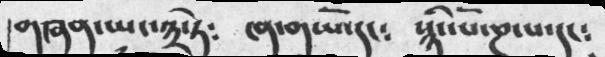།གཞན་ཡང་༣་ཏེ༴  ངན་གཡོ་དང༴  སྙིང་པོ་ཎ་པ་དང༴
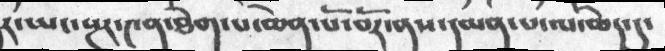ར་ཡང་སྔར་༤ན་ཐེག་པ་ཆེན་པོ་བོར་ནས་དམན་པ་ལ་ཆེད་དུ་
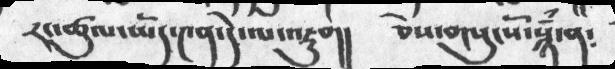རང་ཚུལ་ཡོད་༤ན་དེ་ལ་འཇུབ།།    ཅེས་གསུངསོ་སྙཾ་ན༴
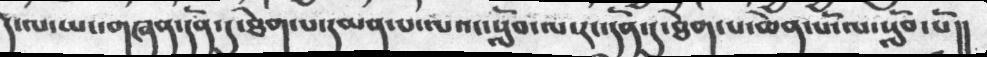དེ་ལ་ཡང་གཞན་དོན་དུ་ཐེག་པ་དམན་པ་ལའང་སློབ་ལ་རང་དོན་དུ་ཐེག་པ་ཆེན་པོ་ལ་སློབ་པོ།།
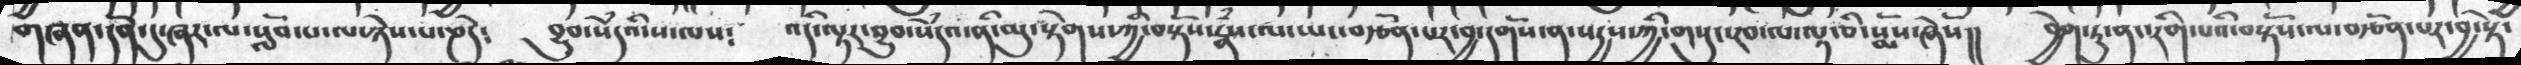གཞན་དོན་དུ་ཞར་ལ་སློབ་པ་ལ་ཉེས་པ་ཎདེ༴   བྱུབ་སེཾདའི་ས་ལ༴   འདི་ལྟར་བྱུབ་སེདྃའ་ནི་མུ་སྟེགས་ཀྱི་བསྟོས་རྣཾས་ལ་ཡང་བརྩོན་པར་བྱ་དགོས་ན་སརྒྱས་ཀྱི་གསུང་རབ་ལ་ལྟ་ཅི་སྨོས་ཞེསོ།།    བྱེག་ཏུ་ནང་རིག་པའི་བསྟོས་ལ་བརྩོན་པར་བྱ་སྟེ་
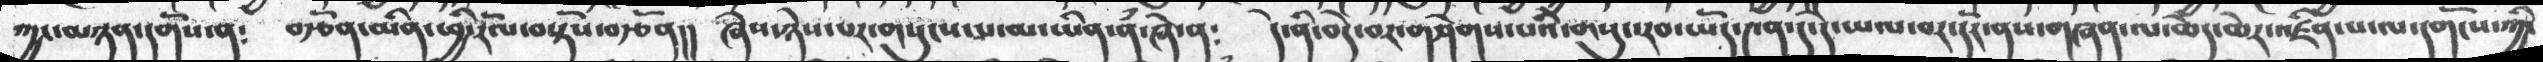ཀྱང་མཉན་དགོས་ན༴   བརྩོན་མིན་ཕྱིར་རོལ་བསྟོས་བརྩོན།།   ཞེས་ཉེས་པར་གསུངས་པ་མ་ཡིན་ནཾ་ཞེ་ན༴  དེ་ནི་བདེ་བར་གཤེགས་པའི་གསུང་རབ་ཡོད་༤ན་དུ་དེ་ཡལ་བར་དོར་ནས་གཞན་ལ་ཆེར་ཆེར་འཛིན་པ་ལ་དགོངས་ཀྱི་
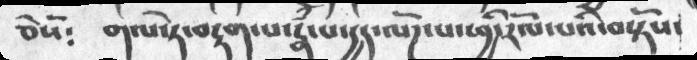ཅེསོ༴       གལ་ཏེ་བརྟག་པ་རྣཾ་པ་རྱད་ལོཌ་པ་ཕྱིར་རོལ་པའི་བསྟོས་
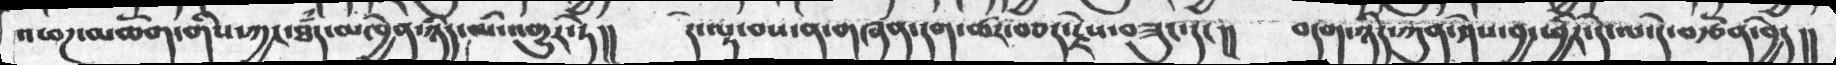འཕཌ་མཆོག་གིས་ཀྱང་ཐཾད་མཁྱེན་ཉིད་མི་འགྱུར་ཏེ།།    དེ་ལྟ་བས་ན་གཞན་དག་ཚར་བཅད་རྗེས་བཟུང་དང།།    བདག་ཉིད་ཀུན་ཤེས་བྱ་ཕྱིར་དེ་ལ་དེ་བརྩོན་བྱེད།།
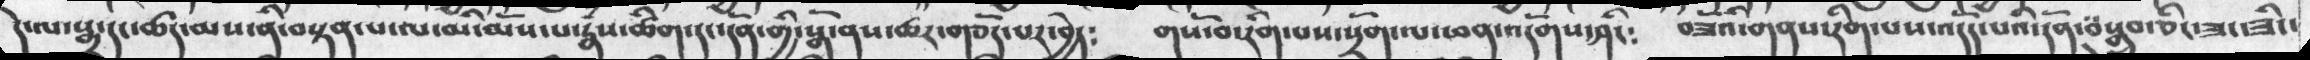དེ་ལ་སྒྲ་དང་ཚད་མས་ནི་བསྟན་པ་ལ་མི་མོས་པ་རྣྃས་ཚིག་དང་དོན་གྱི་སྒོ་ནས་གཅོད་པར་བྱེད༴  གསོ་བ་རིག་པས་སྲོག་ལ་ཕན་འདོགས་ཤིང༴   བཟོའི་གནས་རིག་པས་འདོད་པའི་དོན་བསྒྲུབ་ཅིང་ཟང་ཟིང་
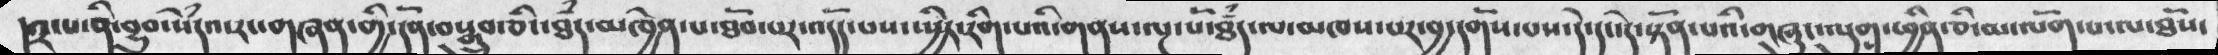། ༢་པ་ནི་བྱུབ་སེདྃའ་རང་གཞན་གྱི་དོན་བསྒྲུབ་ཅིང་ཐྃད་མཁྱེན་པ་ཐོབ་པར་འདོད་པས་ཡྱིར་རིག་པའི་གནས་ལྔ་པོ་ཐྃད་ལ་མཁས་པར་བྱ་དགོས་པས་དེ་དང་དེར་སྟོན་པའི་གཞུང་ལུག་ཕྱིན་ཅི་མ་ལོག་པ་ལ་ཐོས་
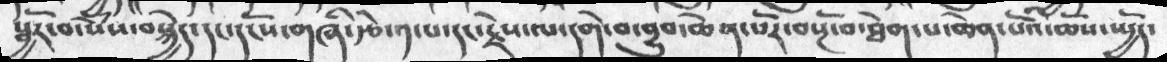སྦྱོར་བ་སེསྃ་བསྐྱེད་དང་དངོས་གཞི་རྩེ་༡་པ་དང་རྗེས་ལ་དགེ་བ་བྱུབ་ཆེན་པོར་བསྔོ་བ་ཐེག་པ་ཆེན་པོའི་ཆོས་ཡྱོད་
